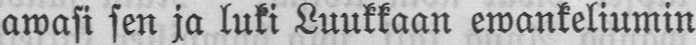awasi sen ja luki Luukkaan ewankeliumin
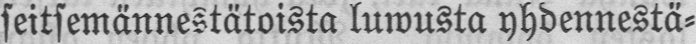seitsemännestätoista luwusta yhdennestä-
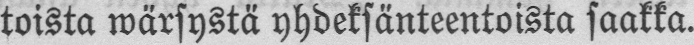toista wärsystä yhdeksänteentoista saakka.
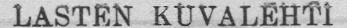LASTEN KUVALEHTI
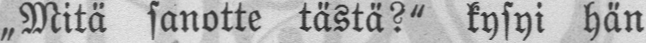„Mitä sanotte tästä?" kysyi hän
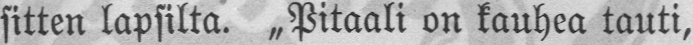sitten lapsilta. „Pitaali on kauhea tauti,
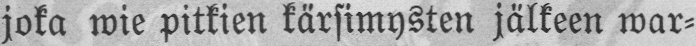joka wie pitkien kärsimysten jälkeen war-
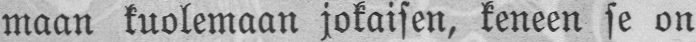maan kuolemaan jokaisen, keneen se on
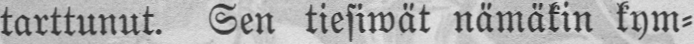tarttunut. Sen tiesiwät nämäkin kym-
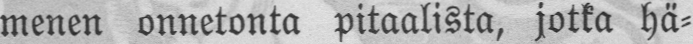menen onnetonta pitaalista, jotka hä-
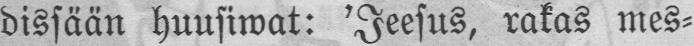dissään huusiwat: 'Jeesus, rakas mes-
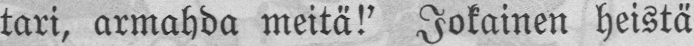tari, armahda meitä!' Jokainen heistä
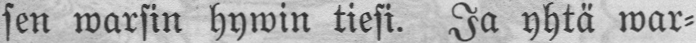sen warsin hywin tiesi. Ja yhtä war-
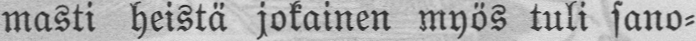masti heistä jokainen myös tuli sano-
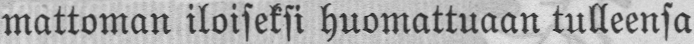mattoman iloiseksi huomattuaan tulleensa
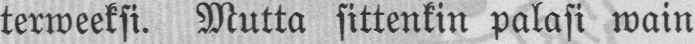terweeksi. Mutta sittenkin palasi wain
